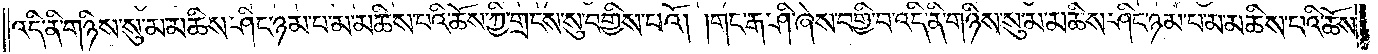འདི་ནི་གཉིས་སུ་མ་མཆིས་ཤིང་ཉམ་པ་མ་མཆིས་པའི་ཆོས་ཀྱི་གྲངས་སུ་བགྱིས་པའོ། །གང་རྒ་ཤི་ཞེས་བགྱི་བ་འདི་ནི་གཉིས་སུ་མ་མཆིས་ཤིང་ཉམ་པ་མ་མཆིས་པའི་ཆོས་
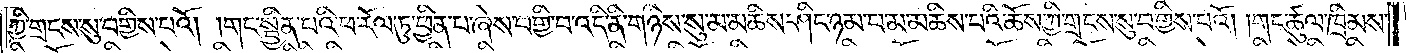ཀྱི་གྲངས་སུ་བགྱིས་པའོ། །གང་སྦྱིན་པའི་ཕ་རོལ་ཏུ་ཕྱིན་པ་ཞེས་བགྱི་བ་འདི་ནི་གཉིས་སུ་མ་མཆིས་ཤིང་ཉམ་པ་མ་མཆིས་པའི་ཆོས་ཀྱི་གྲངས་སུ་བགྱིས་པའོ། གང་ཚུལ་ཁྲིམས་
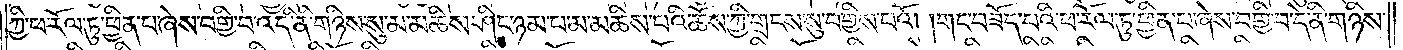ཀྱི་ཕ་རོལ་ཏུ་ཕྱིན་པ་ཞེས་བགྱི་བ་འདི་ནི་གཉིས་སུ་མ་མཆིས་ཤིང་ཉམ་པ་མ་མཆིས་པའི་ཆོས་ཀྱི་གྲངས་བགྱིས་པའོ། །གང་བཟོད་པའི་ཕ་རོལ་ཏུ་ཕྱིན་པ་ཞེས་བགྱི་བ་དི་ནི་གཉིས་
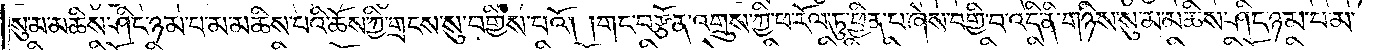སུ་མ་མཆིས་ཤིང་ཉམ་པ་མ་མཆིས་པའི་ཆོས་ཀྱི་གྲངས་སུ་བགྱིས་པའོ། །གང་བརྩོན་འགྲུས་ཀྱི་ཕ་རོལ་ཏུ་ཕྱིན་པ་ཞེས་བགྱི་བ་འདི་ནི་གཉིས་སུ་མ་མཆིས་ཤིང་ཉམ་པ་མ་
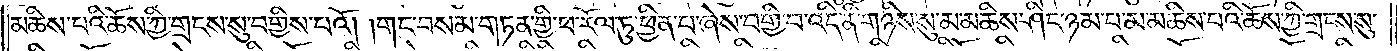མཆིས་པའི་ཆོས་ཀྱི་གྲངས་སུ་བགྱིས་པའོ། །གང་བསམ་གཏན་གྱི་ཕ་རོལ་ཏུ་ཕྱིན་པ་ཞེས་བགྱི་བ་འདི་ནི་གཉིས་སུ་མ་མཆིས་ཤིང་ཉམ་པ་མ་མཆིས་པའི་ཆོས་ཀྱི་གྲངས་སུ་
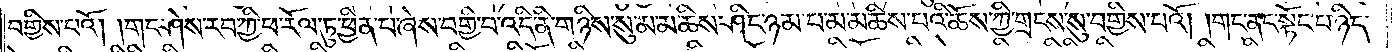བགྱིས་པའོ། །གང་ཤེས་རབ་ཀྱི་ཕ་རོལ་ཏུ་ཕྱིན་པ་ཞེས་བགྱི་བ་འདི་ནི་གཉིས་སུ་མ་མཆིས་ཤིང་ཉམ་པ་མ་མཆིས་པའི་ཆོས་ཀྱི་གྲངས་སུ་བགྱིས་པའོ། །གང་ནང་སྟོང་པ་ཉིད་
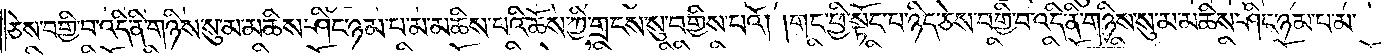ཅེས་བགྱི་བ་འདི་ནི་གཉིས་སུ་མ་མཆིས་ཤིང་ཉམ་པ་མ་མཆིས་པའི་ཆོས་ཀྱི་གྲངས་སུ་བགྱིས་པའོ། གང་ཕྱི་སྟོང་པ་ཉིད་ཅེས་བགྱི་བ་འདི་ནི་གཉིས་སུ་མ་མཆིས་ཤིང་ཉམ་པ་མ་
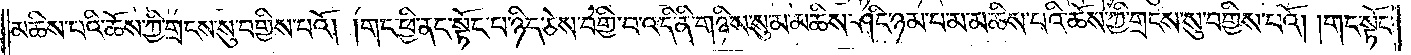མཆིས་པའི་ཆོས་ཀྱི་གྲངས་སུ་བགྱིས་པའོ། །གང་ཕྱི་ནང་སྟོང་པ་ཉིད་ཅེས་བགྱི་བ་འདི་ནི་གཉིས་སུ་མ་མཆིས་ཤིང་ཉམ་པ་མ་མཆིས་པའི་ཆོས་ཀྱི་གྲངས་སུ་བགྱིས་པའོ། །གང་སྟོང་
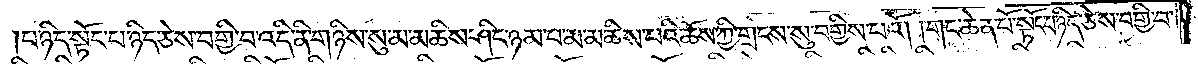པ་ཉིད་སྟོང་པ་ཉིད་ཅེས་བགྱི་བ་འདི་ནི་གཉིས་སུ་མ་མཆིས་ཤིང་ཉམ་པ་མ་མཆིས་པའི་ཆོས་ཀྱི་གྲངས་སུ་བགྱིས་པའོ། །གང་ཆེན་པོ་སྟོང་པ་ཉིད་ཅེས་བགྱི་བ་
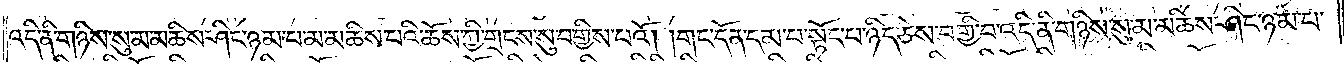འདི་ནི་གཉིས་སུ་མ་མཆིས་ཤིང་ཉམ་པ་མ་མཆིས་པའི་ཆོས་ཀྱི་གྲངས་སུ་བགྱིས་པའོ། །གང་དོན་དམ་པ་སྟོང་པ་ཉིད་ཅེས་བགྱི་པ་འདི་ནི་གཉིས་སུ་མ་མཆིས་ཤིང་ཉམ་པ་
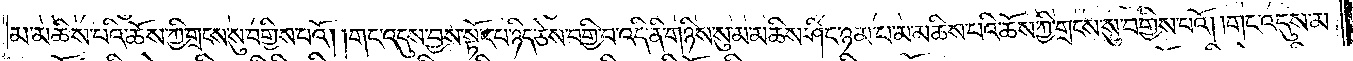མ་མཆིས་པའི་ཆོས་ཀྱི་གྲངས་སུ་བགྱིས་པའོ། །གང་འདུས་བྱས་སྟོང་པ་ཉིད་ཅེས་བགྱི་བ་འདི་ནི་གཉིས་སུ་མ་མཆིས་ཤིང་ཉམ་པ་མ་མཆིས་པའི་ཆོས་ཀྱི་གྲངས་སུ་བགྱིས་པའོ། །གང་འདུས་མ་
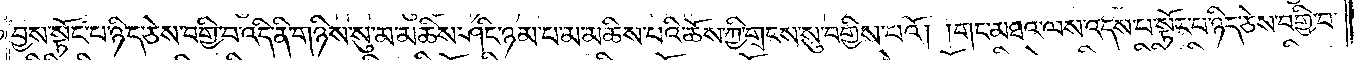བྱས་སྟོང་པ་ཉིད་ཅེས་བགྱི་བ་འདི་ནི་གཉིས་སུ་མ་མཆིས་ཤིང་ཉམ་པ་མ་མཆིས་པའི་ཆོས་ཀྱི་གྲངས་སུ་བགྱིས་པའོ། །གང་མཐའ་ལས་འདས་པ་སྟོང་པ་ཉིད་ཅེས་བགྱི་བ་
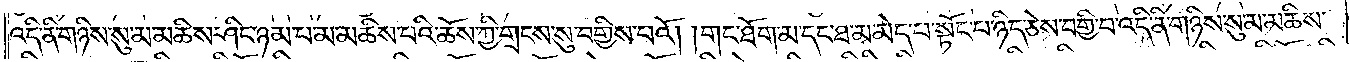འདི་ནི་གཉིས་སུ་མ་མཆིས་ཤིང་ཉམ་པ་མ་མཆིས་པའི་ཆོས་ཀྱི་གྲངས་སུ་བགྱིས་པའོ། །གང་ཐོག་མ་དང་ཐ་མ་མེད་པ་སྟོང་པ་ཉིད་ཅེས་བགྱི་བ་འདི་ནི་གཉིས་སུ་མ་མཆིས་
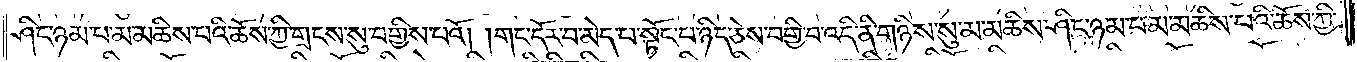ཤིང་ཉམ་པ་མ་མཆིས་པའི་ཆོས་ཀྱི་གྲངས་སུ་བགྱིས་པའོ། །གང་དོར་བ་མེད་པ་སྟོང་པ་ཉིད་ཅེས་བགྱི་བ་འདི་ནི་གཉིས་སུ་མ་མཆིས་ཤིང་ཉམ་པ་མ་མཆིས་པའི་ཆོས་ཀྱི་
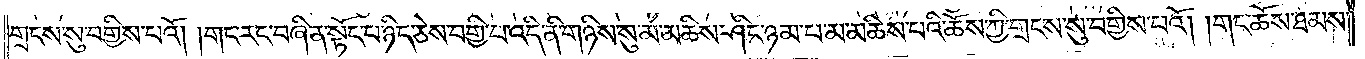གྲངས་སུ་བགྱིས་པའོ། །གང་རང་བཞིན་སྟོང་པ་ཉིད་ཅེས་བགྱི་བ་འདི་ནི་གཉིས་སུ་མ་མཆིས་ཤིང་ཉམ་པ་མ་མཆིས་པའི་ཆོས་ཀྱི་གྲངས་སུ་བགྱིས་པའོ། །གང་ཆོས་ཐམས་
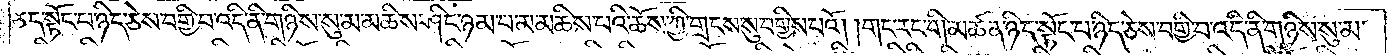ཅད་སྟོང་པ་ཉིད་ཅེས་བགྱི་བ་འདི་ནི་གཉིས་སུ་མ་མཆིས་ཤིང་ཉམ་པ་མ་མཆིས་པའི་ཆོས་ཀྱི་གྲངས་སུ་བགྱིས་པའོ། །གང་རང་གི་མཚན་ཉིད་སྟོང་པ་ཉིད་ཅེས་བགྱི་བ་འདི་ནི་གཉིས་སུ་མ་
